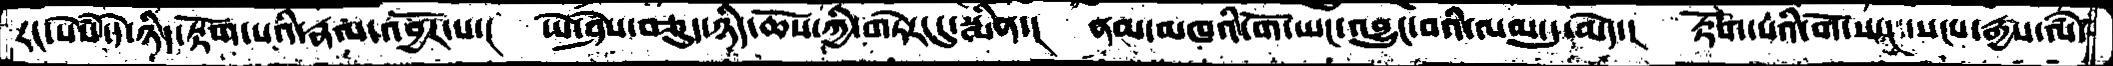རང་སེཾས་དེ་ཉིད་རྟོག་པའི་རྣལ་འབྱོར་པ་།  ཡེ་ཤེས་བཅུད་ཉིད་ཆོས་ཀྱི་གཏེར་དུ་སྨིན་།  ནམ་མཁའི་གོ་ཡང་འབྱུང་བའི་ལམ་དུ་མེད་།  རྟོག་པའི་གོ་ཡང་སངས་རྒྱས་ལཾ་
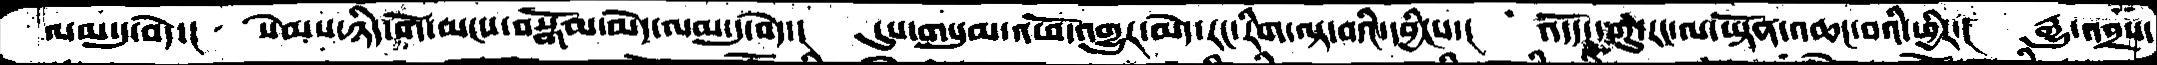ལམ་དུ་བདེ་།  སེམས་ཉིད་གོ་མངས་བསྒོམ་མེད་ལམ་དུ་བདེ་།  དུས་གསུམ་འཕོ་འགྱུར་མེད་རང་རིག་ལྟ་བའི་དབྱིངས་།   འདོད་དགུ་རང་ལ་ཡྟོན་འཆང་བའི་ཕྱིར་།   རྒྱུ་འབྲས་
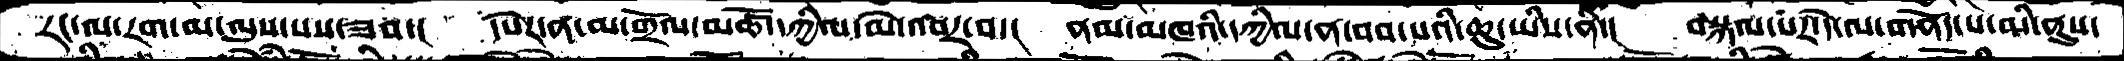རང་ལ་རག་མ་ལུས་པས་ཟབ་།   དཔེར་ན་མ་གྲོལ་མཚོ་དཀྱིལ་མེ་འབར་བ་།  ནམ་མཁའི་དཀྱིལ་ན་བབ་པའི་ཆུ་ཡིས་ནི་།  བསྐལ་པར་དེ་ལ་གནོད་པ་མི་ནུས་
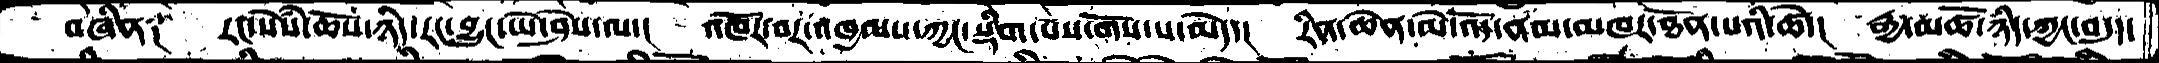བཞིན༑   རང་སེཾས་ཆོས་ཉིད་རང་བྱུང་ཡེ་ཤེས་ལ་།  འཁོར་བར་འཁྱམས་ཀྱང་སྡིག་པས་གོས་ས་མེད་།  རིན་ཆེན་མེ་འོད་ནམ་མཁར་ཐོན་པའི་ཚེ་།  རྒྱ་མཚོ་ཉིད་ཀྱང་བདུད་
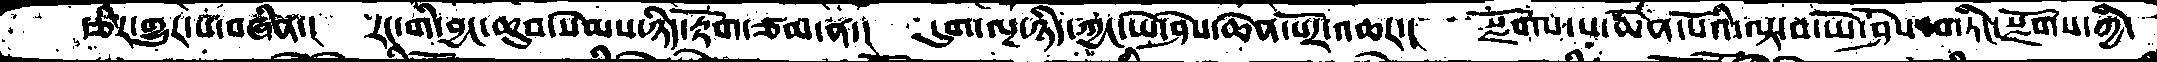རྩིརགྱུར་པ་བཞིན་།  རང་གི་བྱང་ཆུབ་སེམས་ཉིད་རྟོག་ཙམ་ན་།  དུག་ལྔ་ཉིད་ཀྱང་ཡེ་ཤེས་ཆེན་པོར་འཆར་།  སྫོགས་པ་ཆེན་པོའི་ལྟ་་བ་ཡེ་ཤེས་གཏིང་སྫོགས་ཀྱི་
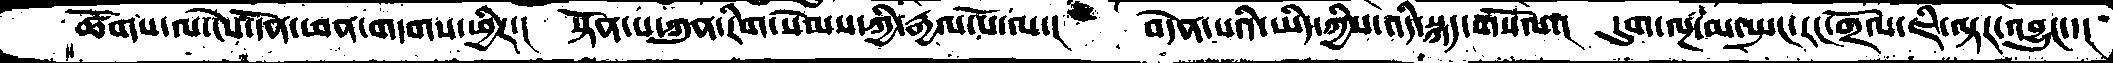ཚོགས་ལ་ངེས་དོན་ཕན་གདགས་ཕྱིར་།  སྟོན་པ་ཀུན་རིག་སེམས་ཀྱིརྒྱལ་པོ་ལ་།   བདེན་པའི་ཡིད་ཀྱིས་འདི་སྐད་གསོལ་།  དུག་ལྔ་མ་སྤང་རང་གྲོལ་ཇི་ལྟར་འབྱུང་་།
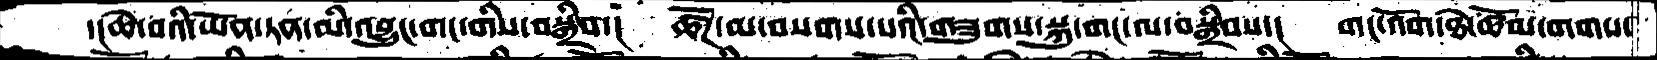་།ཆེ་བའི་ཡོན་ཏན་མི་འབྱུང་གང་གིས་བསྒྲིབ་།  ཚོཌ་མ་བསགས་པའི་གཟུགས་སྐུ་གང་ལ་བསྒྲིབས་།  གང་འོག་ཐེ་ཚོམ་གགས་
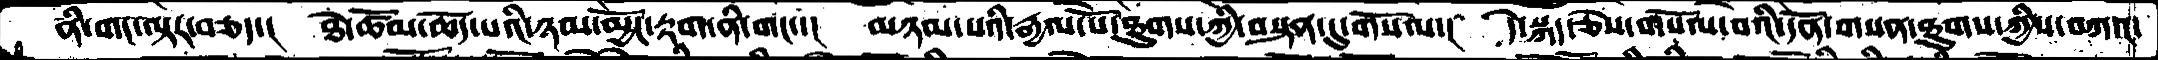ནི་གང་ལྟར་བཅད་།  ཐེ་ཚོམ་ཆོད་པའི་ཉམ་མྱོང་རྟག་ནི་གང་་།  མཉམ་པའི་རྒྱལ་པོ་ཐུགས་ཀྱི་བསྟན་དུ་གསོལ་།  དེ་སྐད་ཅེས་གསོལ་བའི་དོན་གསན་ཐུགས་ཀྱིས་བཀའ་
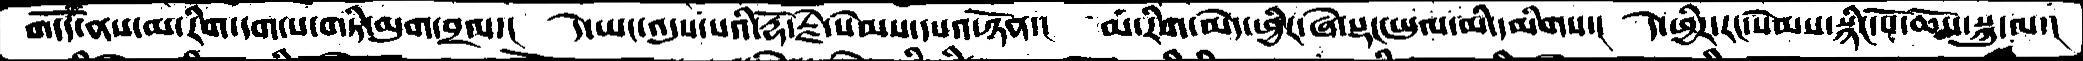གདོད་ནས་མ་་རིག་དག་པ་གཏི་མུག་བྲལ་།  དེ་ཡང་འདུས་པའི་རྡོ་རྗེ་སེམས་དཔའ་ཉོན་།  མ་རིག་མེད་ཕྱིར་ཞེ་སྡང་ཡུལ་མི་དམིགས་།  དེ་ཕྱིར་རང་སེམས་སྙིང་པོ་ཆོས་སྐུ་ལ་།
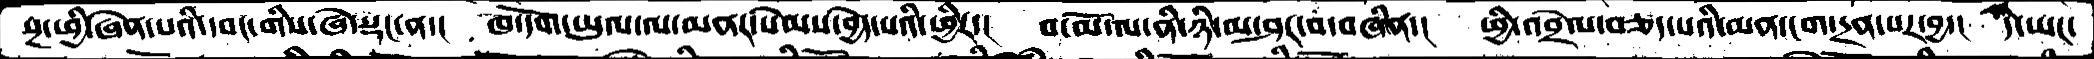སྔ་ཕྱི་ཞེན་པའི་དབང་གིས་ཞེ་སྡང་ན་།  ཁ་དོག་ཡུལ་ལ་མནར་སེམས་བྱེད་པའི་ཕྱིར་།  བ་མོ་ལ་ནི་ཉི་མ་ཤར་བ་བཞིན་།  ཕྱི་འབྲེལ་བཅད་པའི་མན་ངག་དྲན་པར་བྱ་།  དེ་ཡང་
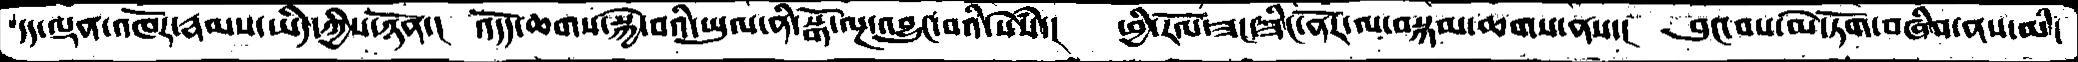དད་ལྡན་འཁོར་རྣམས་ཡིད་ཀྱིས་ཉོན་།  འདོད་ཆགས་སྐྱེ་བའི་ཡུལ་ནི་སྒོ་ལྔ་འབྱུང་བའི་སེཾས་།   ཕྱི་རོལ་ཟང་ཟིང་ནོར་ལ་བསྐམ་ཆགས་ནས་།  བུང་བས་མེ་ཏོག་བཞིབ་ནས་མི་
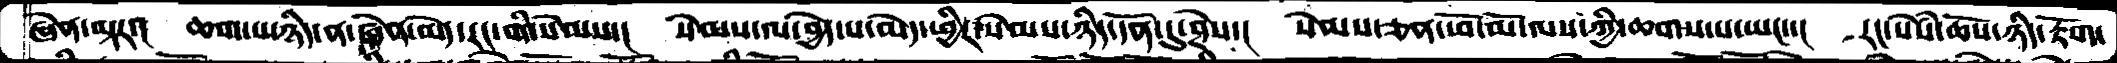ཞེན་ལྟར་།  ཆག་པ་ཉིད་ན་ཞེན་མེད་རང་གི་སེམས་།  སེམས་ལ་བྱེད་པ་མེད་ཕྱིར་སེམས་ཉིད་དོན་དུ་ཤེས་།  སེམས་ཅན་ཕོ་མོ་ལས་ཀྱི་ཆགས་ས་ཡང་་།  རང་སེཾས་ཆོས་ཉིད་རྟོག་
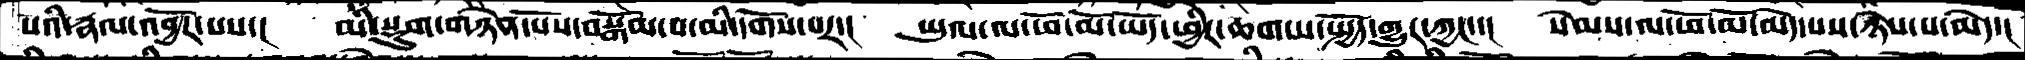པའི་རྣལ་འབྱོར་པས་།  མི་སྡུག་གཉེན་པོས་བསྒོམ་པ་མི་དགོས་པར་།  ཡུལ་ལ་ཕོ་མོ་ཡོད་ཕྱིར་ཆག་པ་སྤྱོད་གྱུར་ཀྱང་་།  སེམས་ལ་ཕོ་མོ་མེད་པས་ཉེས་པ་མེད་།
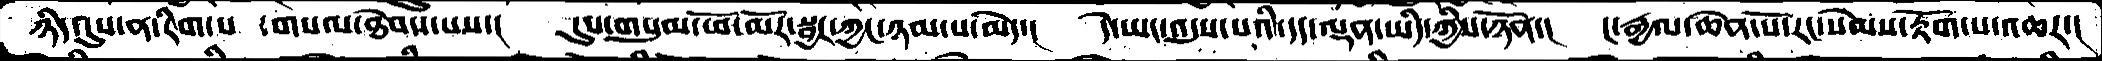ཉིད་དུས་ན་རིག་པ ་གསལ་ཐེབས་པས་།  དུས་གསུམ་ཕོ་མོར་སྦྱར་ཀྱང་ཉམ་པ་མེད་།  དེ་ཡང་འདུས་པའི་དད་ལྡན་ཡིད་ཀྱིས་ཉོན་།  ང་རྒྱལ་ཆེན་པོ་རང་སེམས་རྟོག་པ་འཆར་།
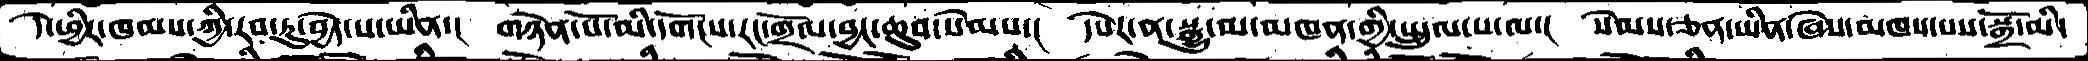དེ་ཕྱིར་ཁམས་ཀྱི་རབ་ཏུ་བྱེད་པ་ཡིན་།  གཉེན་པོ་མི་དགོངས་རང་གྲོལ་བྱང་ཆུབ་སེམས་།  དཔེར་ན་སྒྱུ་མ་མཁན་གྱི་སྤྲུལ་པ་ལ་།   སེམས་ཅན་ཡིན་ཞེས་མཁས་པས་སྒྲོ་མི་
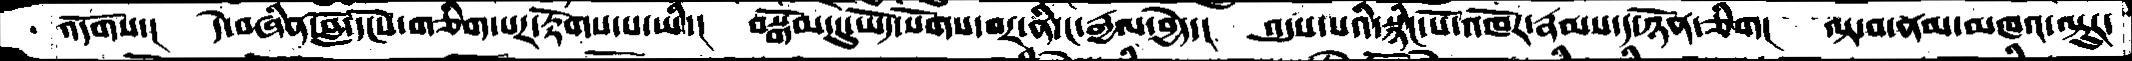འདོགས་།  དེ་བཞིན་བློ་དངོས་གཅིག་པར་རྟོགས་པ་ཡི་།  བསྒོམ་དུ་ཡོད་སོགས་བར་ནི་ང་རྒྱལ་བྱེད་།  འདུས་པའི་སྙིང་པོ་འཁོར་རྣམས་ད་ཉོན་ཅིག།  ལྟ་བ་ནམ་མཁའ་ལྟུར་
